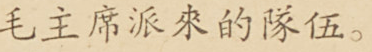毛主席派來的隊伍。
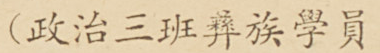（政治三班彝族學員
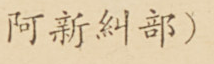阿新糾部）
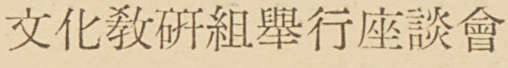文化敎研組舉行座談會
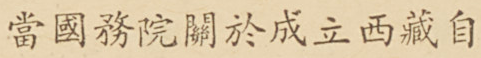當國務院關於成立西藏自
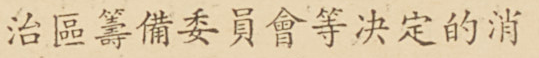治區籌備委員會等決定的消
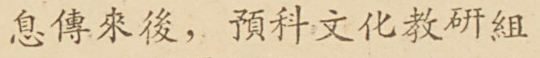息傳來後，預科文化教研組
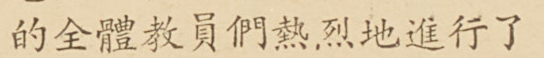的全體教員們熱烈地進行了
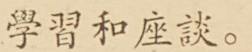學習和座談。
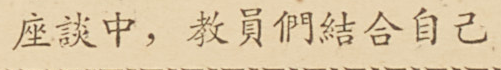座談中，教員們結合自己
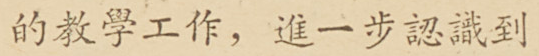的教學工作，進一步認識到
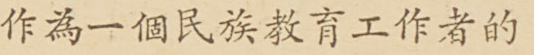作為一個民族教育工作者的
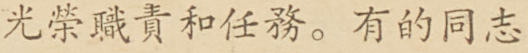光榮職責和任務。有的同志
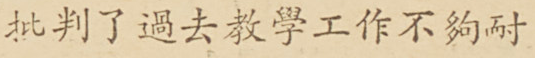批判了過去教學工作不夠耐
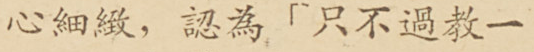心細緻，認為「只不過教一
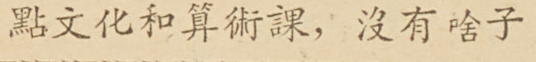點文化和算術課，沒有啥子
